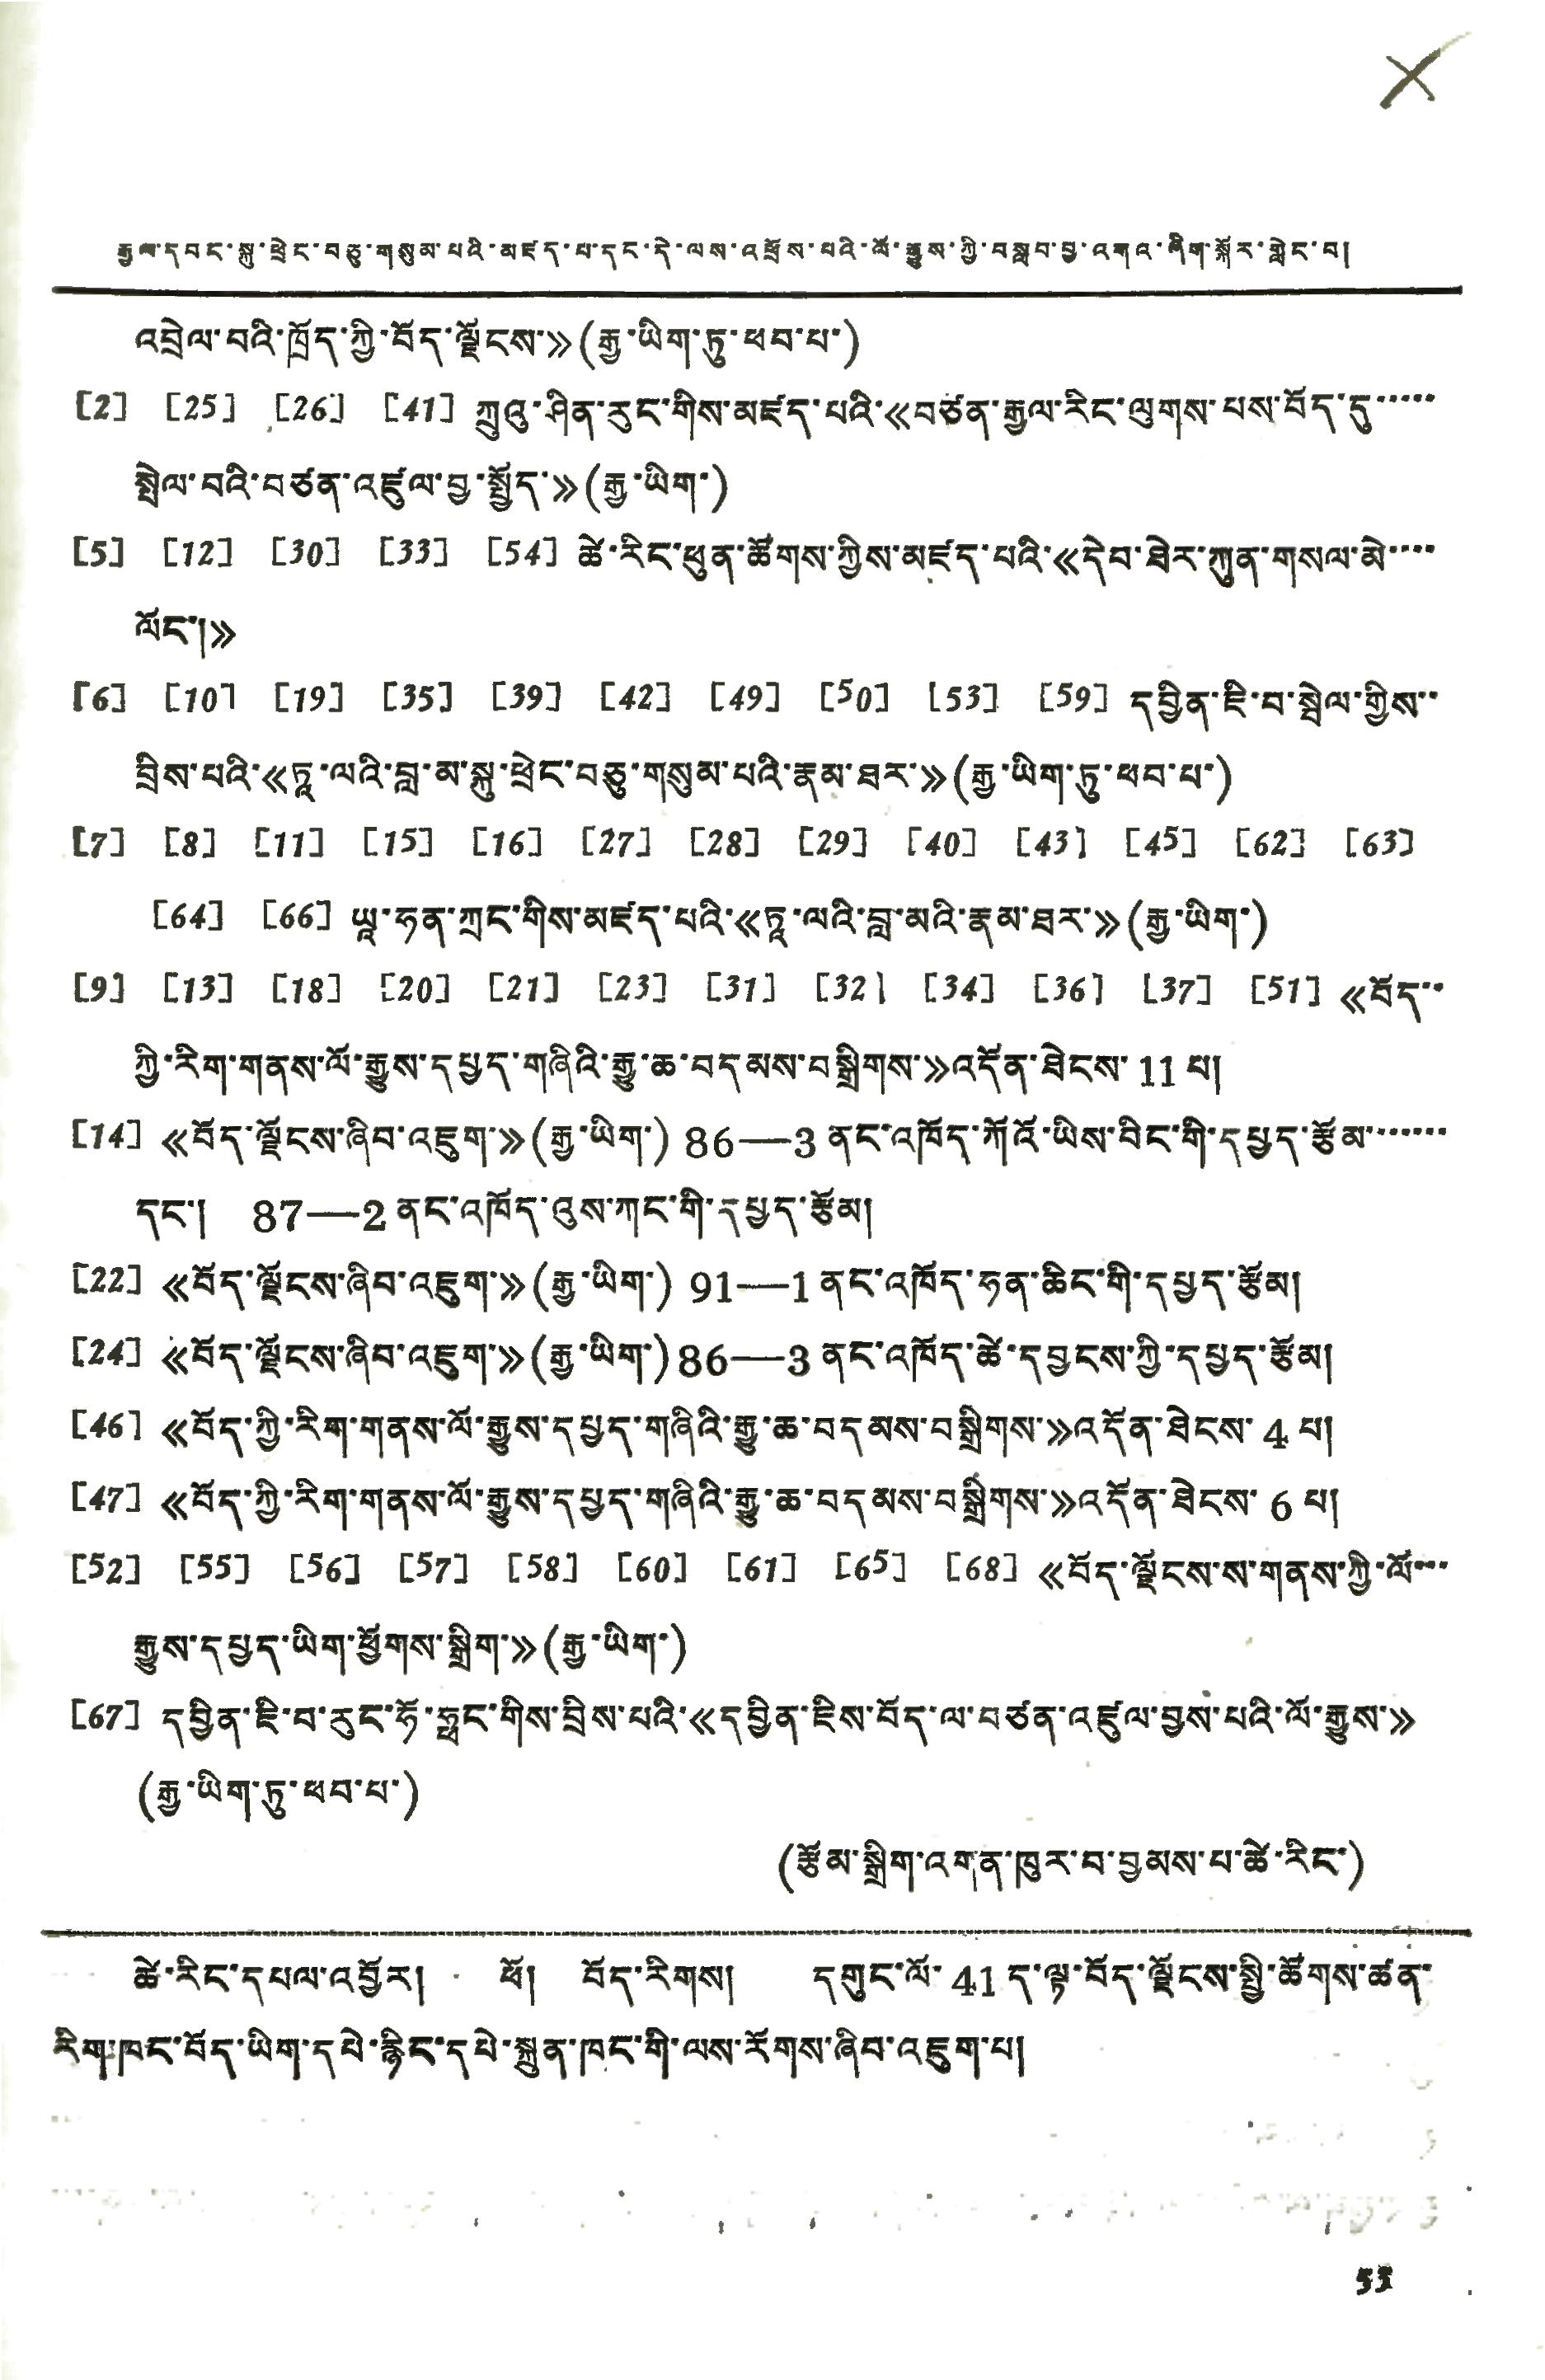རྒྱལ་དབང་སྐུ་ཕྲེང་བཅུ་གསུམ་པའི་མཛད་པ་དང་དེ་ལས་འཕྲོས་པའི་ལོ་རྒྱུས་ཀྱི་བསླབ་བྱ་འགའ་ཞིག་སྐོར་གླེང་བ།
འབྲེལ་བའི་ཁྲོད་ཀྱི་བོད་ལྗོངས་》 (རྒྱ་ཡིག་ཏུ་ཕབ་པ་)
[2] [25] [26] [41] ཀྲུའི་ཤིན་རུང་གིས་མཛད་པའི་《བཙན་རྒྱལ་རིང་ལུགས་པས་བོད་དུ་་་་་
སྤེལ་བའི་བཙན་འཛུལ་བྱ་སྦྱོད་》 (རྒྱ་ཡིག་)
[5] [12] [30] [33] [54] ཚེ་རིང་ཕུན་ཚོགས་ཀྱིས་མཛད་པའི་《དེབ་ཐེར་ཀུན་གསལ་མེ་་་་
ལོང་།》
[6] [10] [18] [35] [39] [42] [49] [50] [53] [59] དབྱིན་ཇི་བ་སྦེལ་གྱིས་་
བྲིས་པའི་《ཏཱ་ལའི་བླ་མ་སྐུ་ཕྲེང་བཅུ་གསུམ་པའི་རྣམ་ཐར་》 (རྒྱ་ཡིག་ཏུ་ཕབ་པ་)
[7] [8] [11] [15] [16] [27] [28] [29] [40] [43] [45] [62] [63]
[64] [66] ཡཱ་ཧན་ཀྲང་གིས་མཛད་པའི་《ཏཱ་ལའི་བླ་མའི་རྣམ་ཐར་》 (རྒྱ་ཡིག་)
[9] [13] [18] [20] [21] [23] [31] [32] [34] [36] [37] [51] 《བོད་་
ཀྱི་རིག་གནས་ལོ་རྒྱུས་དཔྱད་གཞིའི་རྒྱུ་ཆ་བདམས་བསྒྲིགས་》འདོན་ཐེངས་11 པ།
[14] 《བོད་ལྗོངས་ཞིབ་འཇུག་》 (རཡ་ཡིག་) 86——3 ནང་འཁོད་ཀོའོ་ཡིས་བིང་གི་དཔྱད་རྩོམ་་་་་་
དང་། 87——2 ནང་འཁོད་འུས་ཀང་གི་དཔྱད་རྩོམ།
[22] 《བོད་ལྗོངས་ཞིབ་འཇུག་》 (རྒྱ་ཡིག་) 91——1 ནང་འཁོད་ཧན་ཆིང་གི་དཔྱད་རྩོམ།
[24] 《བོད་ལྗོངས་ཞིབ་འཇུག་》 (རྒྱ་ཡིག་) 86——3 ནང་འཁོད་ཚེ་དབྱངས་ཀྱི་དཔྱད་རྩོམ།
[46] 《བོད་ཀྱི་རིག་གནས་ལོ་རྒྱུས་དཔྱད་གཞིའི་རྒྱུ་ཆ་བདམས་བསྒྲིགས་》འདོ་ཐེངས་4 པ།
[47] 《བོད་ཀྱི་རིག་གནས་ལོ་རྒྱུས་དཔྱད་གཞིའི་རྒྱུ་ཆ་བདམས་བསྒྲིགས་》འདོན་ཐེངས་6 པ།
[52] [55] [56] [57] [58] [60] [61] [65] [68] 《བོད་ལྗོངས་ས་གནས་ཀྱི་ལོ་་་
རྒྱུས་དཔྱད་ཡིག་ཕྱོགས་སྒྲིག་》 (རྒྱ་ཡིག་)
[67] དབྱིང་ཇི་བ་རུང་ཧོ་ཧྥང་གིས་བྲིས་པའི་《དབྱིན་ཇིས་བོད་ལ་བཙན་འཛུལ་བྱས་པའི་ལོ་རྒྱུས་》
(རྒྱ་ཡིག་ཏུ་ཕབ་པ་)
(རྩོམ་སྒྲིག་འགན་ཁུར་བ་བྱམས་པ་ཚེ་རིང་)
ཚེ་རིང་དཔལ་འབྱོར། ཕོ། བོད་རིགས། དགུང་ལོ་41 ད་ལྟ་བོད་ལྗོངས་སྤྱི་ཚོགས་ཚན་
རིག་ཁང་བོད་ཡིག་དཔེ་རྙིང་དཔེ་སྐྲུན་ཁང་གི་ལས་རོགས་ཞིབ་འཇུག་པ།
53
